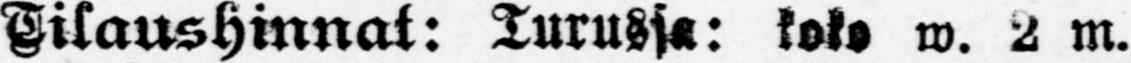Tilaushinnat: Turussa: koko w. 2 m.
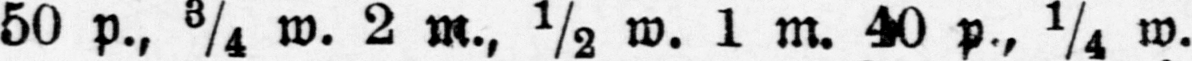50 p., ¾ w. 2 m., ½ w. 1 w. 40 p.,¼ w.
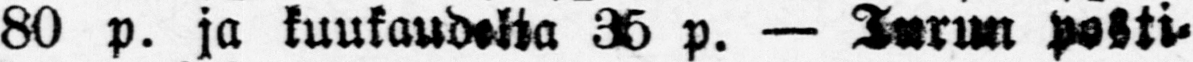80 p. ja kuukaudetta 35 p. — Turun posti-
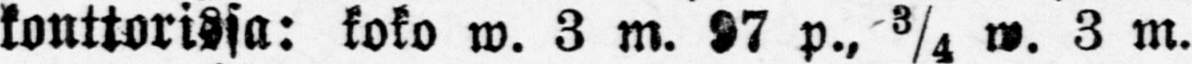konttorissa: koko w. 3 m. 97 p.,¾ w. 3 m.
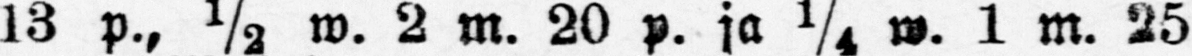13 p., w. 2 m. 20 p. ja ¼ 1 m. 25
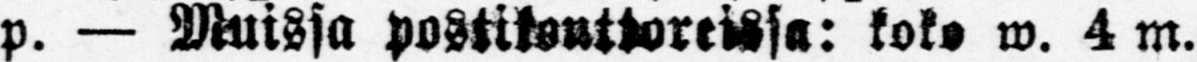p. — Muissa postikonttoreissa: koko w. 4 m.
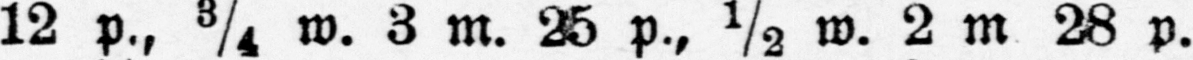12 p., ¼ w. 3 m. 25 p., ½ w. 2 m 28 p.
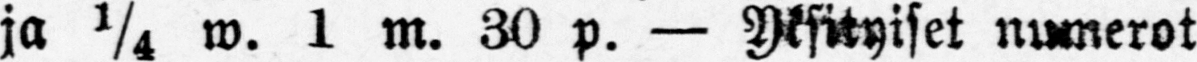ja ¼ w. 1 m. 30 p. — Yksityiset numerot
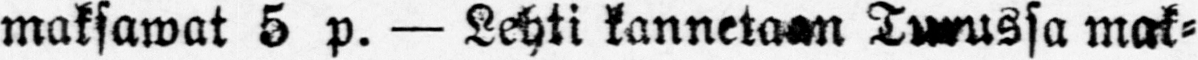maksawat 5 p. — Lehti kannetaan Turussa mak-
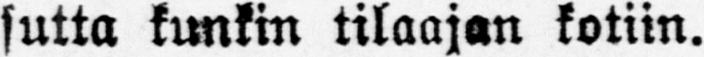sutta kunkin tilaajan kotiin.
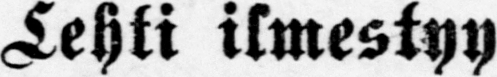Lehti ilmestyy
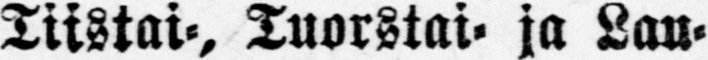Tiistai-, Tuorstai- ja Lau-
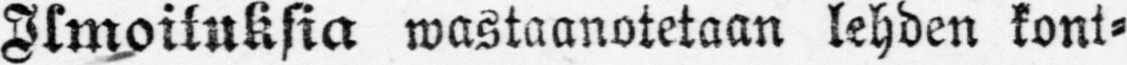Ilmoituksia wastaanotetaan lehden kont-
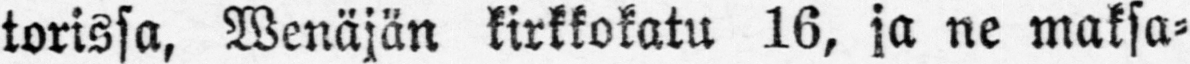torissa, Wenäjän kirkkokatu 16, ja ne maksa-
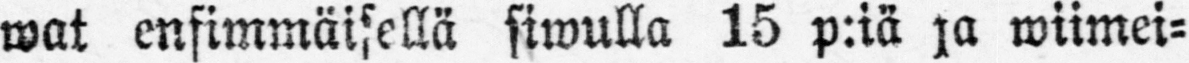wat ensimmäisellä siwulla 15 p:iä ja wiimei-
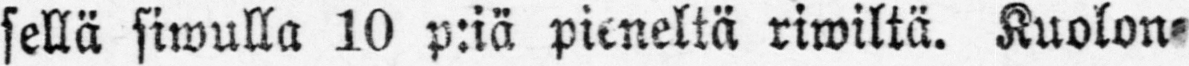sellä suwulla 10 p:iä pieneltä riwiltä. Kuolon-
